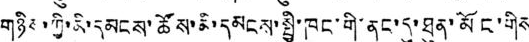གཉིས་ཀྱི་མི་དམངས་ཚོས་མི་དམངས་སྤྱི་ཁང་གི་ནང་དུ་ཐུན་མོང་གིས
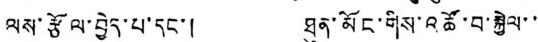ལས་རྩོལ་བྱེད་པ་དང་། ཐུན་མོང་གིས་འཚོ་བ་སྐྱེལ་་
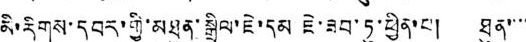མི་རིགས་དབར་གྱི་མཐུན་སྒྲིལ་ཇེ་དམ ཇེ་ཟབ་ཏུ་ཕྱིན་པ། ཐུན་་་་
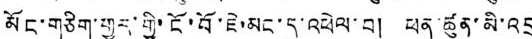མོང་གཅིག་གྱུར་གྱི་ངོ་བོ་ཇེ་མང་དུ་འཕེལ་བ། ཕན་ཚུན་མི་འདྲ
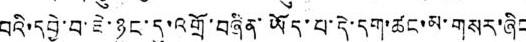བའི་དབྱེ་བ་ཇེ་ཉུང་དུ་འགྲོ་བཞིན་ཡོད་པ་དེ་དག་ཚང་མ་གསར་ཞིང
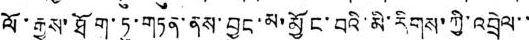ལོ་རྒྱུས་ཐོག་ཏུ་གཏན་ནས་བྱུང་མ་མྱོང་བའི་མི་རིགས་ཀྱི་འབྲེལ་་
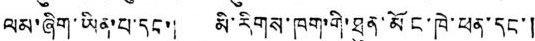ལམ་ཞིག་ཡིན་པ་དང་། མི་རིགས་ཁག་གི་ཐུན་མོང་ཁེ་ཕན་དང་།
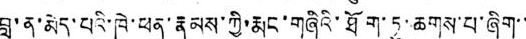བླ་ན་མེད་པའི་ཁེ་ཕན་རྣམས་ཀྱི་རྨང་གཞིའི་ཐོག་ཏུ་ཆགས་པ་ཞིག་་
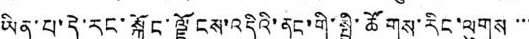ཡིན་པ་དེ་རང་སྐྱོང་ལྗོངས་འདིའི་ནང་གི་སྤྱི་ཚོགས་རིང་ལུགས་་་
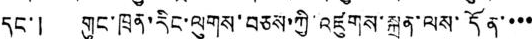དང་། གུང་ཁྲན་རིང་ལུགས་བཅས་ཀྱི་འཛུགས་སྐྲུན་ལས་དོན་་་་
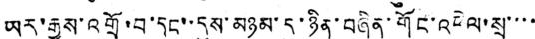ཡར་རྒྱས་འགྲོ་བ་དང་་དུས་མཉམ་དུ་ཉིན་བཞིན་གོང་འཕེལ་སྲ་་་་
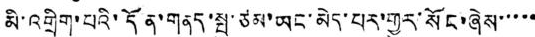མི་འགྲིག་པའི་དོན་གནད་སྤུ་ཙམ་ཡང་མེད་པར་གྱུར་སོང་ཞེས་་་་་
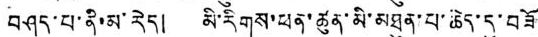བཤད་པ་ནི་མ་རེད། མི་རིགས་ཕན་ཚུན་མི་མཐུན་པ་ཆེད་དུ་བཟོ
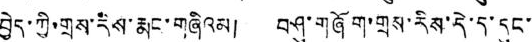བྱེད་ཀྱི་གྲས་དེས་རྨང་གཞིའམ། བཤུ་གཞོག་གྲས་རིས་དེ་ད་དུང་
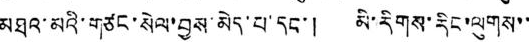མཐའ་མའི་གཙང་སེལ་བྱས་མེད་པ་དང་། མི་རིགས་རིང་ལུགས་་
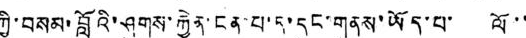ཀྱི་བསམ་བློའི་ཤུགས་རྐྱེན་ངན་པ་ད་དུང་གནས་ཡོད་པ་ ལོ་་
